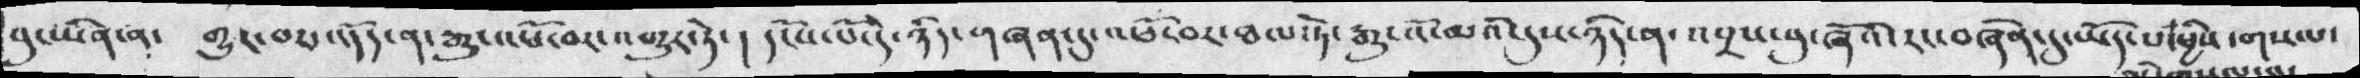བུ་ཡིན་ན་  གྱུར་བར་འདོད་ན་རྒྱུ་འཕོ་བར་འགྱུར་ཏེ་།  དངོས་པོ་དེ་ཉིད་གཞན་དུ་འཕོ་བར་ཐལ་ཏེ་རྒྱུ་འོ་མའི་དུས་ཉིད་ན་འབྲས་བུ་ཞོའི་རང་བཞིན་དུ་ཡོད་པ་ཕྱིས་གསལ་
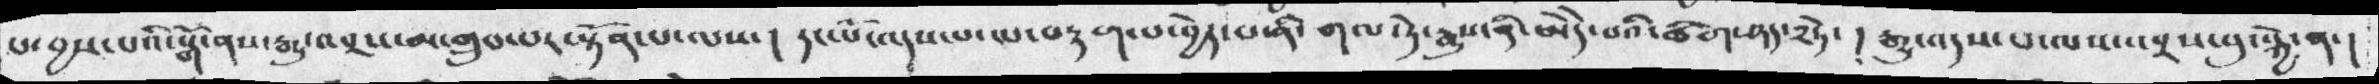པ་བྱས་པའི་སྒོ་ནས་རྒྱུ་འབྲས་མ་གྲུབ་པར་སྟོན་པ་ལས་། དང་པོ་འདས་པ་ལ་བརྟག་པ་བྱེད་པ་ནི་གལ་ཏེ་རྒྱུས་ནི་ཨེདེ་པའི་ཚིག་ཤད་༢ཏེ་། རྒྱུ་འདས་པ་ལས་འབྲས་བུ་སྐྱེ་ན་།
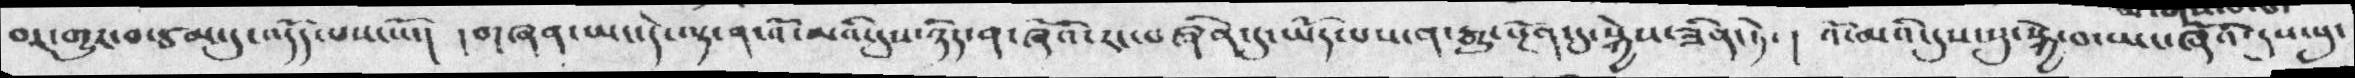བར་གྱུར་བ་ཙམ་དུ་འདོད་པས་སོ་།  ། གཞན་ཡང་དེ་ལྟ་ན་འོ་མའི་དུས་ཉིད་ན་ཞོའི་རང་བཞིན་དུ་ཡོད་པས་ན་རྒྱུ་སྔོན་དུ་སྐྱེས་ཟིན་ཏེ་།  འོ་མའི་དུས་སུ་སྐྱེ་བ་ཡང་ཞོའི་དུས་སུ་
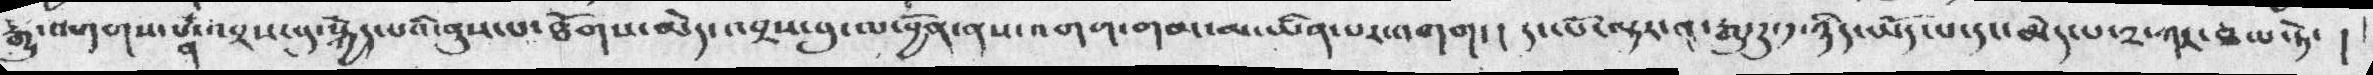རྒྱུ་འགགས་པར་འབྲས་བུ་སྐྱེད་པའི་ནུས་པ་ཐོགས་མེད་འབྲས་བུ་ལ་བྱོན་ནས་འགག་གམ་མ་ཡིན་པར་འགག་།  དང་པོ་ལྟར་ན་རྒྱུ་རུ་༡་ཉིད་ཡོད་པ་དང་མེད་པ་༢་ཀར་ཅུ་པ་ཏ་ །
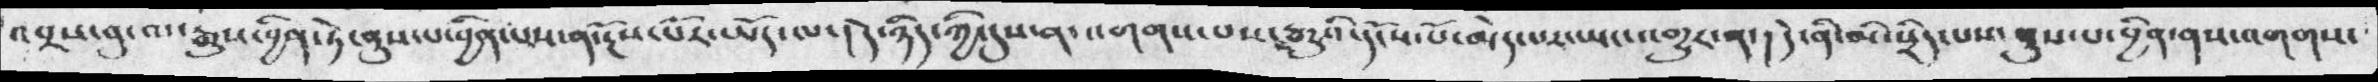འབྲས་བུ་ལ་རྒྱུས་བྱིན་ཏེ་ནུས་པ་བྱིན་པས་ན་རྔོས་པོར་ཡོད་ལ་། དེ་ཉིད་ཀྱི་དུས་ན་འགགས་པས་རྒྱུའི་དངོས་པོ་མེད་པར་ཡང་འགྱུར་ན་། དེ་ནི་མི་སྲིད་པས་ནུས་པ་བྱིན་ནས་འགགས་
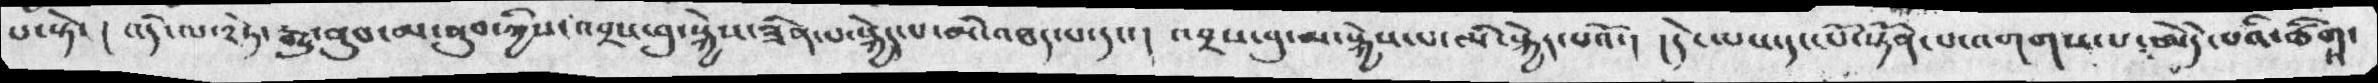པ་སྟེ་ །  འདི་ལ་༢ཏེ་རྒྱུ་ནུབ་མ་ནུབ་ཀྱིས་འབྲས་བུ་སྐྱེས་ཟིན་པ་སྐྱེད་པ་མི་འཐད་པ་དང་།  འབྲས་བུ་མ་སྐྱེས་པ་མི་སྐྱེད་པའོ་།  ། དེང་པས་དང་པོ་སྟོན་པ་འགགས་པ་མེདེ་པའི་ཚིགས་
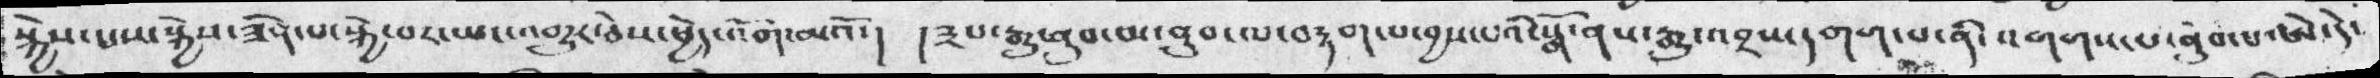སྐྱེས་པས་སྐྱེས་ཟིན་པ་སྐྱེ་བར་ཡང་འགྱུར་ཅེས་ཕྱེད་འོག་མའོ་། །༣པ་རྒྱུ་ནུབ་མ་ནུབ་ལ་བརྟག་པ་བྱས་པའི་སྒོ་ནས་རྒྱུ་འབྲས་དགག་པ་ནི་འགགས་པ་ནུབ་པ་ཨེ་དེ་
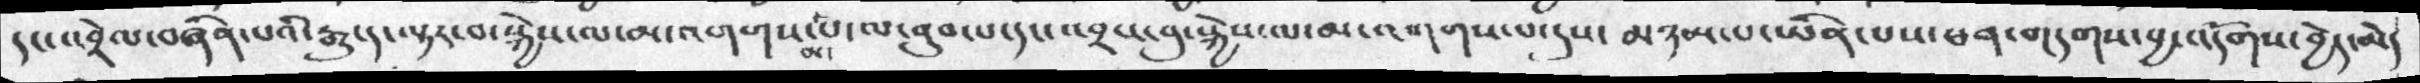དང་འབྲེལ་བཞིན་པའི་རྒྱུ་དང་ལྟར་བ་སྐྱེས་ལ་མ་འགགས་མ་པ་ལ་ནུབ་པ་དང་འབྲས་བུ་སྐྱེས་ལ་མ་འགགས་པ་དུས་  མཉམ་པ་ཡིན་པས་ཕན་གདགས་བྱ་འདོགས་བྱེད་མེད
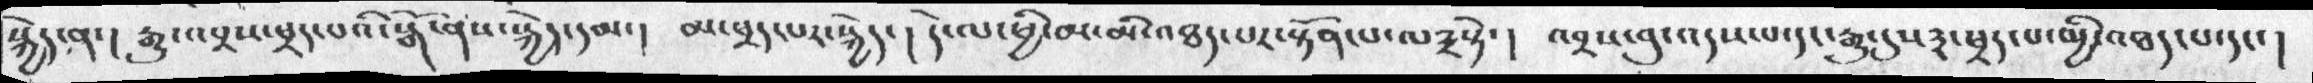སྐྱེད་ན་། རྒྱུ་འབྲས་ཕྲད་པའི་སྒོ་ནས་སྐྱེད་དམ་།  མ་ཕྲད་པར་སྐྱེད་། དེ་ལཕྱི་མ་མ་ི་འཐད་པར་སྟོན་པ་ལ༣སྟེ་། འབྲས་བུ་འདས་པ་དང་རྒྱུ་དུས༣་ཕྲད་པ་མྱི་འཐད་པ་དང་།
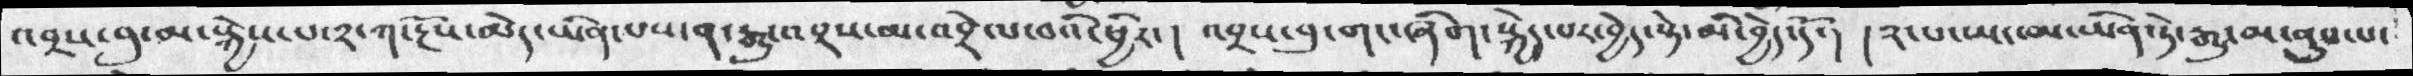འབྲས་བུ་མ་སྐྱེས་པ་༢་ཀ་རྔོས་མེད་ཡིན་པས་ན་རྒྱུ་འབྲས་མ་འབྲེལ་བའི་ཕྱིར་། འབྲས་བུ་གང་ཞིག་སྐྱེད་པར་བྱེད་སྟེ་མི་བྱེད་དོ་། །༢་པ་ཡང་མ་ཡིན་ཏེ་རྒྱུ་མ་ནུབ་པ་
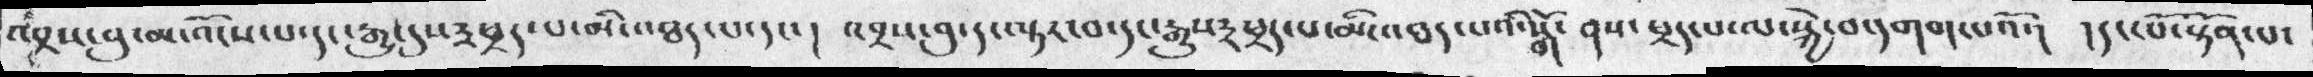འབྲས་བུ་མ་འོངས་པ་དང་རྒྱུ་དུས༣ཕྲད་པ་མི་འཐད་པ་དང་།  འབྲས་བུ་ད་ལྟར་བ་དང་རྒྱུས༣ཕྲད་པ་མི་འཐད་པའི་སྒོ་ནས་ཕྲད་པ་ལ་སྐྱེ་བ་དགག་པའོ་།  །དང་པོ་སྟོན་པ་
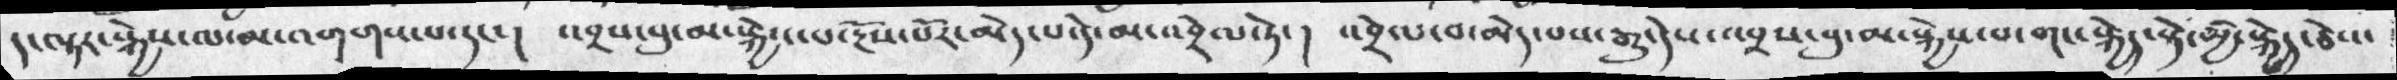ད་ལྟར་སྐྱེས་ལ་མ་འགགས་པ་དང་།  འབྲས་བུ་མ་སྐྱེས་པ་རྔོས་པོར་མེད་པ་དེ་མ་འབྲེལ་ཏེ་། འབྲེལ་བ་མེད་པས་རྒྱུ་དེས་འབྲས་བུ་མ་སྐྱེས་པ་གང་སྐྱེད་སྟེ་མྱི་སྐྱེད་ཅེས་
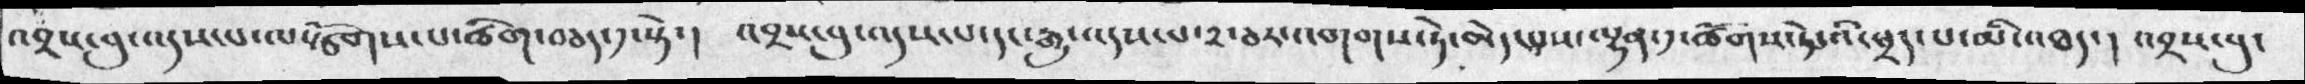འབྲས་བུ་འདས་པ་ལསྩོགས་པ་ཚིག་བཅད་༡་སྟེ་།  འབྲས་བུ་འདས་པ་དང་རྒྱུ་འདས་པ་༢་ཅར་འགགས་ཏེ་མེད་པས་ལྷན་༡་ཚོགས་ཏེ་འི་ཕྲད་པ་མི་འཐད་། འབྲས་བུ་
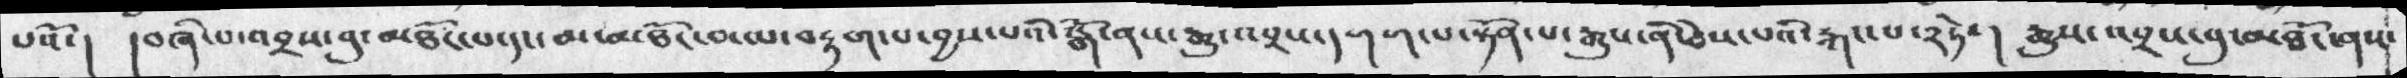པའོ་།  །བཞི་པ་འབྲས་བུ་མཐོང་པ་དང་མ་མཐོང་བ་ལ་བརྟག་པ་བྱས་པའི་སྒོ་ནས་རྒྱུ་འབྲས་དགག་པ་སྟོན་པ་རྒྱུས་ནི་ཅེས་པའི་རྐང་པ་༢ཏེ་། རྒྱུས་འབྲས་བུ་མཐོང་ནས་
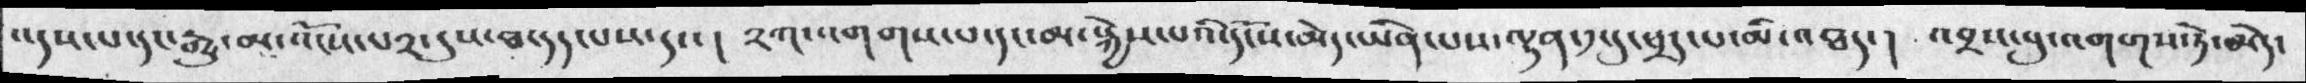འདས་པ་དང་རྒཡུ་མ་འོངས་པ༢་དུས་ཐ་དད་པས་དང་།  ༢ཀ་འགགས་པ་དང་མ་སྐྱེས་པའི་དངོས་མེད་ཡིན་པས་ལྷན་༡་དུ་ཕྲད་པ་མི་འཐད་། འབྲས་བུ་འགགས་ཏེ་མེད་
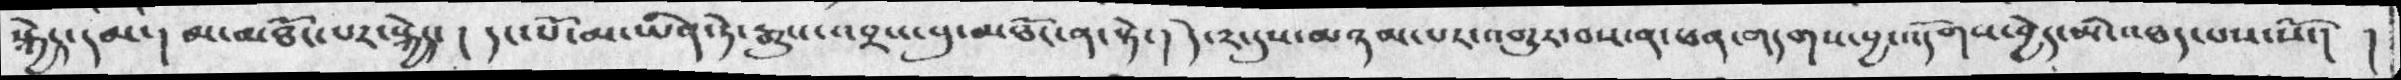སྐྱེད་དམ་། མ་མཐོང་པར་སྐྱེད་། དང་པོ་མ་ཡིན་ཏེ་རྒྱུས་འབྲས་བུ་མཐོང་ན་སྟེ་། དེ་༢་དུས་མཉམ་པར་འགྱུར་བས་ན་ཕན་གདགས་བྱ་འདོགས་བྱེད་མི་འཐད་པས་སོ་། །
